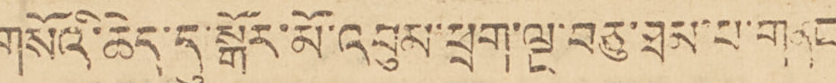གསོའི་ཆེད་དུ་སྒོར་མོ་འབུམ་ཕྲག་ལྔ་བཅུ་ཐམ་པ་གནང་
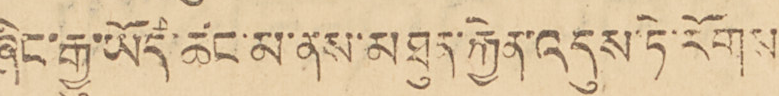ཞིང་རྒྱུ་ཡོད་ཚང་མ་ནས་མཐུན་རྐྱེན་འདུས་ཏེ་རོགས་
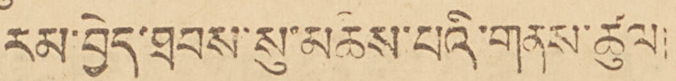རམ་བྱེད་ཐབས་སུ་མཆིས་པའི་གནས་ཚུལ།།
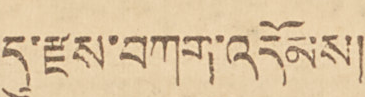དུ་རྫས་བཀག་འདོམས།
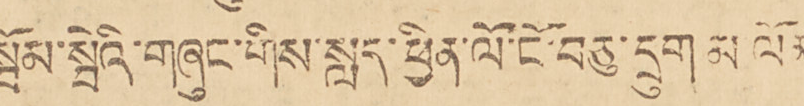སྦོམ་སྤེའི་གཞུང་གིས་སླད་ཕྱིན་ལོ་ངོ་བཅུ་དྲུག་མ་ལོན་
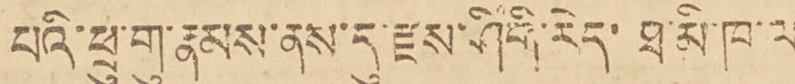པའི་ཕྲུ་གུ་རྣམས་ནས་དུ་རྫས་ཤིགི་རེད་ཐ་མི་ཁ་ལ་
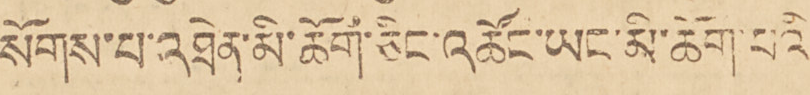སོགས་པ་འཐེན་མི་ཆོག་ཅིང་འཚོང་ཡང་མི་ཆོག་པའི་
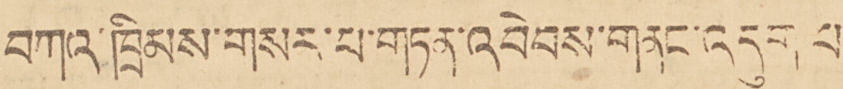བཀའ་ཁྲིམས་གསར་པ་གཏན་འབེབས་གནང་འདུག པ
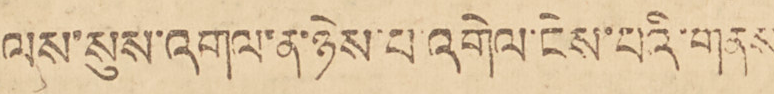ལས་སུས་འགལ་ན་ཉེས་པ་འགེལ་ངེས་པའི་གནས་
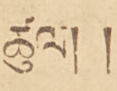ཚུལ། །
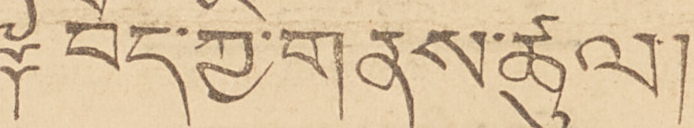༈ བོད་ཀྱི་གནས་ཚུལ།
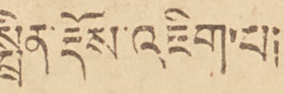སྤྲིན་རྡོས་འཇིག་པ།
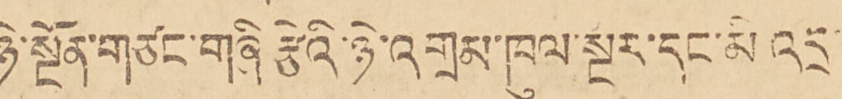ཉེ་སྔོན་གཙང་གཞི རྩེའི་ཉེ་འགྲམ་ཁུལ་སྔར་དང་མི་འདྲ་
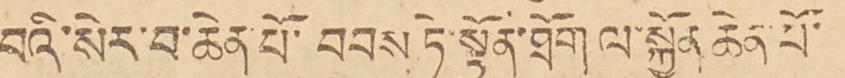བའི་སེར་བ་ཆེན་པོ་བབས ཏེ་སྟོན་ཐོག་ལ་སྐྱོན ཆེན་པོ་
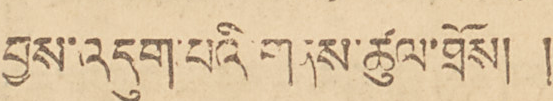བྱས་འདུག་པའི གནས་ཚུལཐོས། །
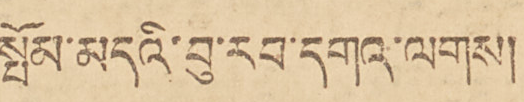སྤོམ་མདའི་བུ་རབ་དགའ་ལགས།
